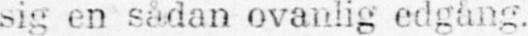sig en sådan ovanlig edgång.
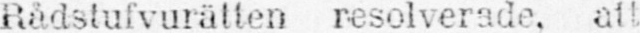Rådstufvurätten resolverade, att
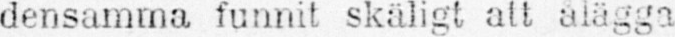densamma funnit skäligt att ålägga
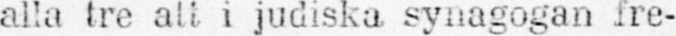alla tre att i judiska synagogan fre-
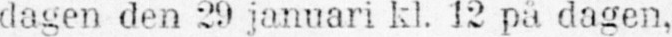dagen den 29 januari kl. 12 på dagen,
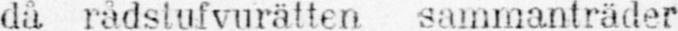då rådstufvurätten sammanträder
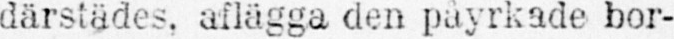därstädes, aflägga den påyrkade bor-
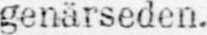genärseden.
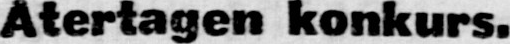Återtagen konkurs.
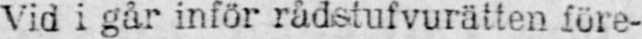Vid i går inför rådstufvurätten före-
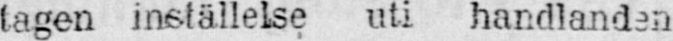tagen inställelse uti handlanden
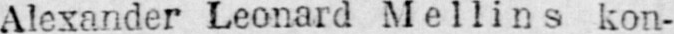Alexander Leonard Mellins kon-
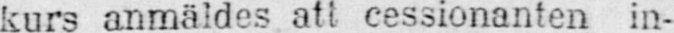kurs anmäldes att cessionanten in-
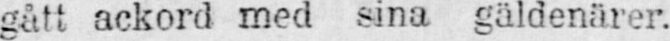gått ackord med sina gäldenärer.
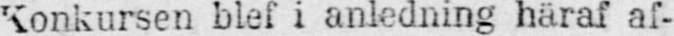Konkursen blef i anledning häraf af-
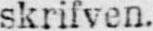skrifven.
